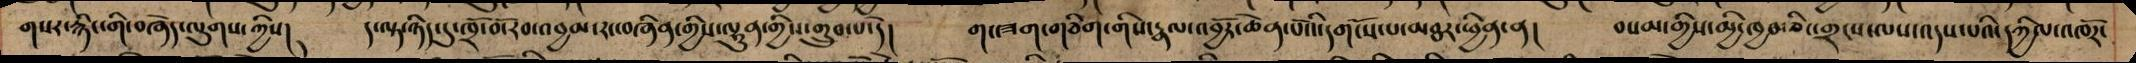གསར་རྙིང་གི་བཞེད་ལུགས་ཀྱིས། ད་ལྟ་ཉིད་དུ་ཁྲོ་བོ་རབ་འབྱམ་རང་བཞིན་གྱིས་ལྷུན་གྱིས་གྲུབ་པ་དེ། གང་ཟག་གཅིག་གིས་རྣལ་འབྱོར་ཆེན་པོའི་དགོངས་པ་མཐར་ཕྱིན་ན། བསམ་གྱིས་མྱི་ཁྱབ་ཅིང་གྲངས་ལས་འདས་པའི་དཀྱིལ་འཁོར་
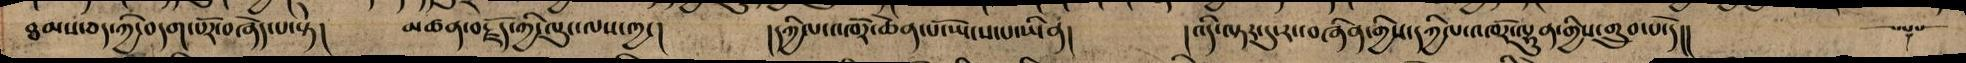ཐམས་ཅད་ཀྱི་བདག་པོར་བཞེད་པ་སྟེ། མཚན་བརྗོད་ཀྱི་ལུང་ལུས་ཀྱང། །དཀྱིལ་འཁོར་ཆེན་པོ་ཡོངས་པ་ཡིན། །འདི་ལྟར་དུ་རང་བཞིན་གྱིས་དཀྱིལ་འཁོར་ལྷུན་གྱིས་གྲུབ་པ་དེ།། ༒
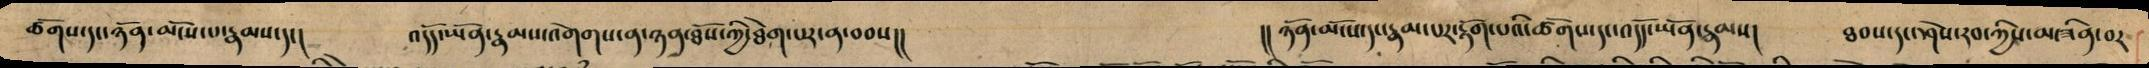ཚོགས་དང་ཉན་མོངས་པ་རྣམས་དང། འདོད་ཡོན་རྣམས་འགེགས་ན་ཉན་ཐོས་ཀྱི་ཐེག་པར་ན་བབས།། །།ཉོན་མོངས་དང་རྣམ་པར་རྟོག་པའི་ཚོགས་དང་འདོད་ཡོན་རྣམས། ཐབས་དང་ཤེས་རབ་ཀྱིས་མ་ཟིན་བར
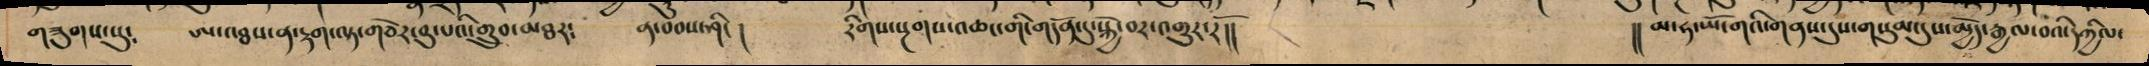གཟུགས་སུ༴ ཨ་འཐས་ན་རྟག་ལྟ་གཅེར་བུ་པའི་གྲུབ་མཐར༴ ན་བབས་ཤིང། རིགས་སྔགས་འཆང་གི་གདོན་དུ་སྐྱེ་བར་འགྱུར་རོ།། །།མ་ཧ་ཡོ་གའི་གནས་དུས་གསུམ་དུས་མྱེད་རྒྱལ་བའི་དཀྱིལ་
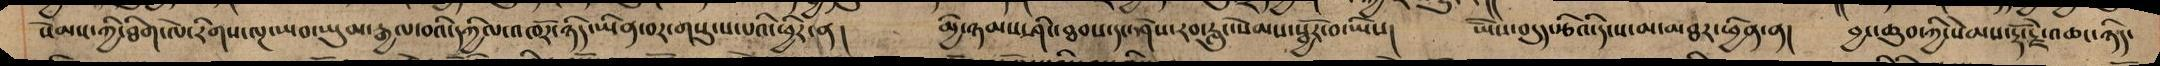སེམས་ཀྱི་ཐིག་ལེ་རིགས་ལྔ་ཡབ་ཡུམ་རྒྱལ་བའི་དཀྱིལ་འཁོར་ཉིད་ཡིན་བར་གསུངས་པའི་ཕྱིར་ན། མྱི་ཉམས་ཤིང་ཐབས་དང་ཤེས་རབ་རླུང་སེམས་སྦྱོར་བ་ཡིས། ཡཻས་བདུད་རྩིའ་དེ་ས་མ་མཐར་ཕྱིན་ན། བྱང་ཆུབ་ཀྱི་སེམས་རྡོ་རྗེ་འཆང་ཉིད་
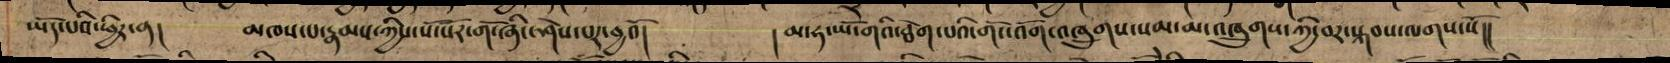ཡོད་པའི་ཕྱིར་ན། མཁས་པ་རྣམས་ཀྱིས་སོ་སོར་གོ་ཞིང་ཤེས་པར་བྱའོ། །མ་ཧ་ཡོ་གའི་ཐེག་པའི་འོག་འཁྲུགས་སམ་མ་འཁྲུགས་ཀྱི་བར་སྐབས་ལགས་སོ།།
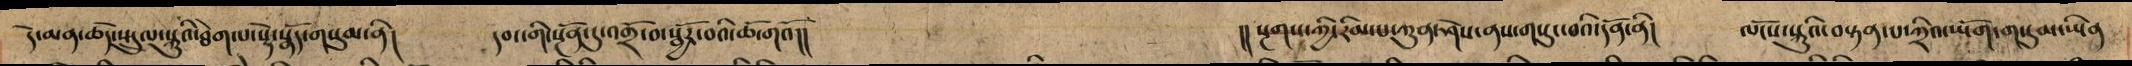དེ་མན་ཆོད་སྤྲུལ་སྐུའི་ཐེག་པ་སྡེ་སྣོད་གསུམ་ནི། དབང་གི་སྔོན་དུ་འགྲོ་བ་སྦྱོར་བའི་ཆོ་གའོ།། །།སྔགས་ཀྱི་རིམ་པ་ཀུན་ཤེས་ནས་གསུང་བའི་དོན་ནི། ལོངས་སྐུའི་བསྟན་པ་ཀྲའི་ཡོག་གསུམ་ཡིན
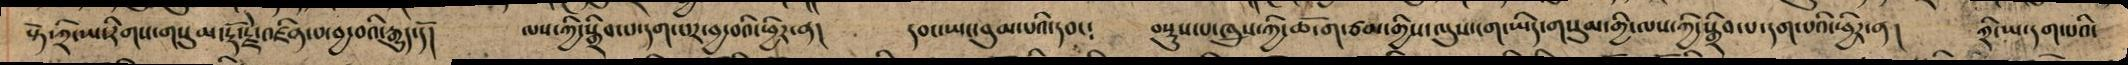སྟེ་ཀྲི་ཡ་རིགས་གསུམ་རྡོ་རྗེ་འཛིན་པ་བྱ་བའི་རྒྱུད་དོ། ལས་ཀྱི་སྒྲིབ་པ་དག་པར་བྱ་བའི་ཕྱིར་ན། དབང་ཡང་བུམ་པའི་དབང༴ བསྡུས་པ་འཁྲུས་ཀྱི་ཆོ་ག་ཙམ་གྱིས་ལུས་ངག་ཡིད་གསུམ་གྱི་ལས་ཀྱི་སྒྲིབ་པ་དག་པའི་ཕྱིར་ན། ཀྲི་ཡ་དག་པའི་
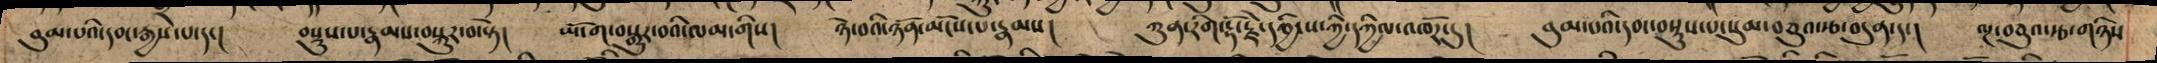བུམ་པའི་དབང་རྒྱས་པ་དང། བསྡུས་པ་རྣམས་བསྐུར་བ་སྟེ། ཡོ་ག་བསྒྱུར་བའི་ལམ་གིས། ཉར་བའི་ཉོན་མོངས་པ་རྣམས། ཀུན་རིག་རྡོ་རྗེ་དབྱིངས་ཀྱི་དཀྱིལ་འཁོར་དུ། བུམ་པའི་དབང་བསྡུས་པ་སུམ་བཅུའ་རྩ་བདུན་དང། ལྔ་བཅུའ་རྩ་གཉིས
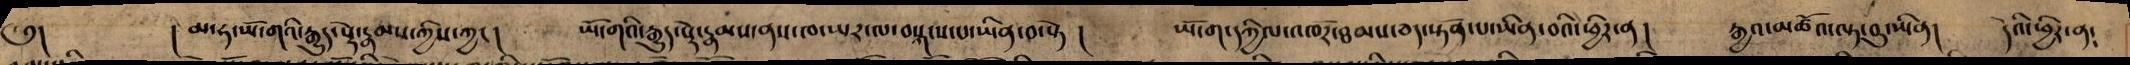༅། ། མ་ཧ་ཡོ་གའི་རྒྱུད་སྡེ་རྣམས་ཀྱིས་ཀྱང། ཡོ་གའི་རྒྱུད་སྡེ་རྣམས་ནས་ཁ་ཡར་ལ་བསྐངས་པ་ཡིན་བ་སྟེ ། ཡོ་ག་དཀྱིལ་འཁཽར་ཐམས་ཅད་སྟོན་པ་ཡིན་བའི་ཕྱིར་ན། རྒྱའ་མཚོའ་ལྟ་བུ་ཡིན། དེའི་ཕྱིར་ན༴
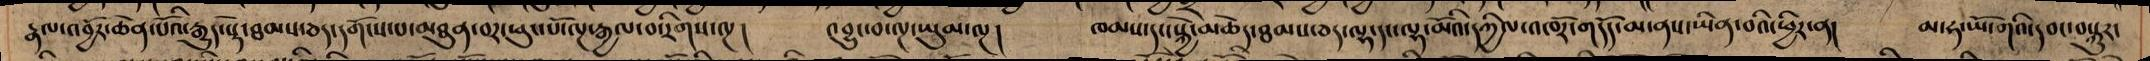རྣཌྷ་འབྱོར་ཆེན་པོའི་རྒྱུད་སྡེ་ཐམས་ཅད་དགོངས་པ་མཐུན་བར་ཕུང་པོ་ལྔ་རྒྱལ་བ་རིགས་ལྔ། འབྱུང་བ་ལྔ་ཡུམ་ལྔ། ཁམས་དང་སྐྱེ་མཆེད་ཐམས་ཅད་ལྷ་དང་ལྷ་མོའི་དཀྱིལ་འཁོར་གདོད་མ་ནས་ཡིན་བའི་ཕྱིར་ན། མ་ཧ་ཡོ་གའི་དབང་བསྐུར་
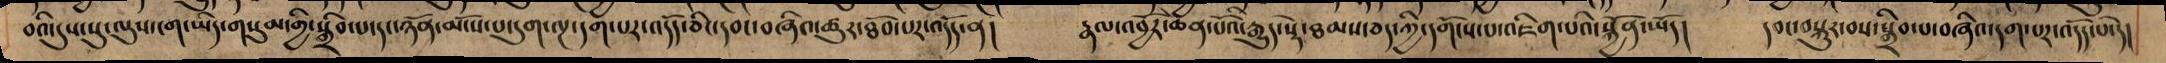བའི་དུས་སུ་ལུས་ངག་ཡིད་གསུམ་གྱི་སྒྲིབ་པ་དང་ཉོན་མོངས་པ་དུག་ལྔ་དག་པར་འདོད་ཅིང་དབང་བཞིའ་ཚུར་ཐོབ་པར་འདོད་ན། རྣལ་འབྱོར་ཆེན་པོའི་རྒྱུད་སྡེ་ཐམས་ཅད་ཀྱི་དགོངས་པ་འཇིག་པའི་སྐྱོན་ཡོད། དབང་བསྐུར་བས་སྒྲིབ་པ་བཞིའ་དག་པར་འདོད་པ་དེ།
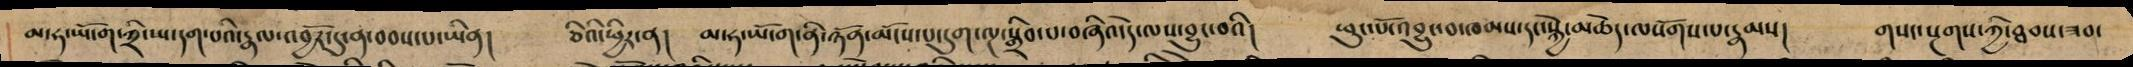མ་ཧ་ཡོ་ག་ཀྲི་ཡ་དག་པའི་རྣལ་འབྱོར་དུ་ན་བབས་པ་ཡིན། ཅིའི་ཕྱིར་ན། མ་ཧ་ཡོ་ག་ནི་ཉོན་མོངས་པ་དུག་ལྔ་སྒྲིབ་པ་བཞིན་དེ་ལས་བྱུང་བའི། ཕུང་པོ་འབྱུང་བ་ཁམས་དང་སྐྱེ་མཆེད་ལསོགས་པ་རྣམས། གསང་སྔགས་ཀྱི་ཐབས་ཟབ་
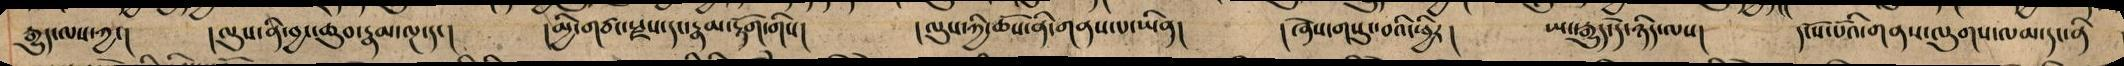རྒྱུད་ལས་ཀྱང། །ལུས་ནི་བྱང་ཆུབ་རྣམ་ལྔ་དང། །མྱི་གཙང་སྫས་དང་རྣམ་རྟོག་གིས། །ལུས་ཀྱི་ཆོས་ནི་གནས་པ་ཡིན། །ཞེས་གསུང་བའི་ཕྱིར། ཡང་རྒྱུད་དེ་ཉིད་ལས། དངོས་པོའི་གནས་ལུགས་ལམ་དང་ནི
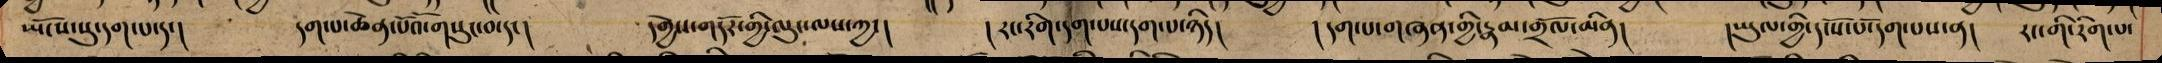ཡོངས་སུ་དག་པ་དང། དག་པ་ཆེན་པོའོ་གསུང་བ་དང། དགྱེས་གདོར་གྱི་ལུང་ལས་ཀྱང། །རང་རིག་དག་པས་དག་པ་ཉིད། །དག་པ་གཞན་གྱི་རྣམ་གྲོལ་མིན། །ཡུལ་གྱི་དངོས་པོ་དག་པས་ན། རང་གི་རིག་པ་
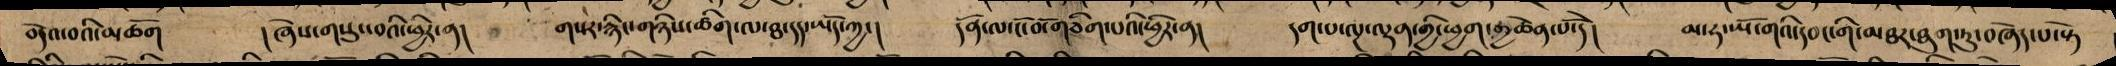བདེའ་བའི་མཆོག །ཞེས་གསུང་བའི་ཕྱིར་ན། གསར་རྙིང་གཉིས་ཚིག་ལ་ཐ་དད་ཡོད་ཀྱང། དོན་ལ་ངོ་བོ་གཅིག་པའི་ཕྱིར་ན། དག་པ་ལྔ་ལྡན་གྱི་ཕྱག་རྒྱ་ཆེན་པོ་དེ། མ་ཧ་ཡོ་གའི་དབང་གི་མཐར་ཐུག་ཏུ་བཞེད་པ་སྟེ
